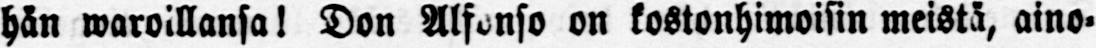hän waroillansa ! Don on kostonhimoisin meistä, aino-
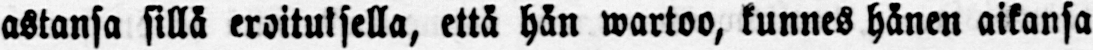astansa sillä eroituksella, että hän wartoo, kunnes hänen aikansa
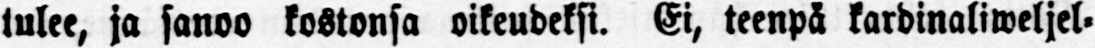tulee, ja sanoo kostonsa oikeudeksi. Ei, teenpä kardinaliweljel-
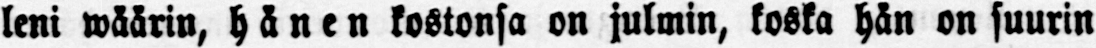leni wäärin, hänen kostonsa on julmin, koska hän on suurin
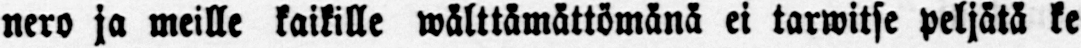nero ja meille kaikille wälttämättömänä ei tarwitse peljätä ke-
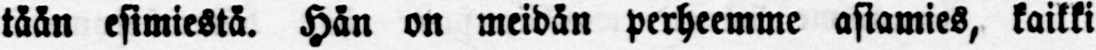tään esimiestä. Hän on meidän perheemme asiamies, kaikki
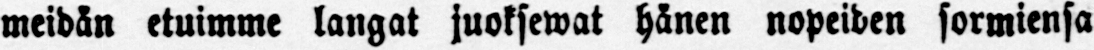meidän etuimme langat juoksewat hänen nopeiden sormiensa
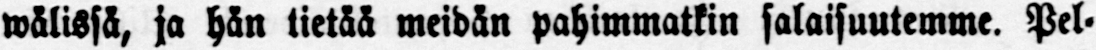välissä, ja hän tietää meidän pahimmatkin salaisuutemme. Pel-
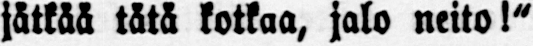jätkää tätä kotkaa, jalo neito!"
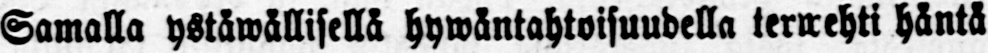Samalla ystäwällisellä hywäntahtoisuudella terwehti häntä
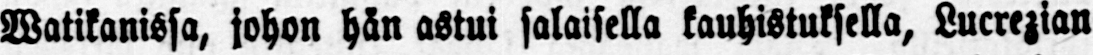Watikanissa, johon hän astui salaisella kauhistuksella, Lucrezian
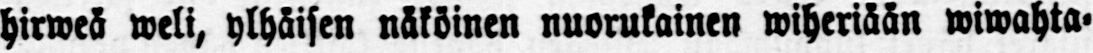hirweä weli, ylhäisen näköinen nuorukainen wiheriään wiwahta-
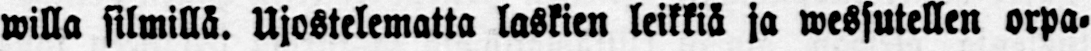willa silmillä. Ujostelematta laskien leikkä ja wessutellen orpa-
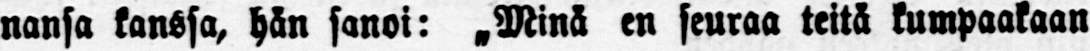nansa kanssa, hän sanoi: „Minä en seuraa teitä kumpaakaan
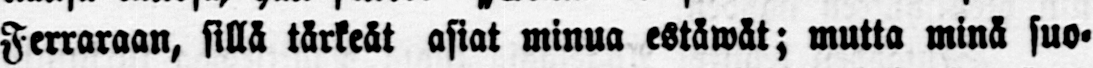Ferraraan, sillä tärkeät asiat minua estäwät; mutta minä suo-
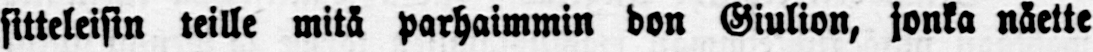sitteleisin teille mitä parhaimmin don Giulion, jonka näette
